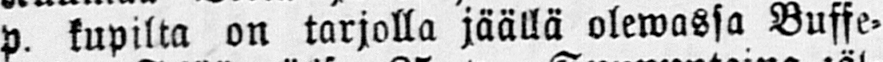p. kupilta on tarjolla jäällä olewassa Buffe-
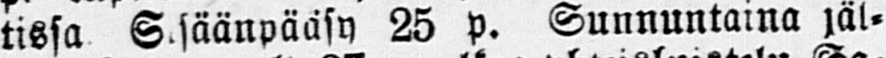tissa. S säänpääsy 25 p. Sunnuntaina jäl-
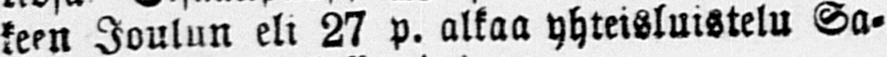keen Joulun eli 27 p. alkaa yhteisluistelu Sa-
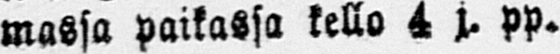massa paikassa kello 4 j. pp.
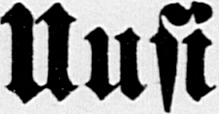Uusi
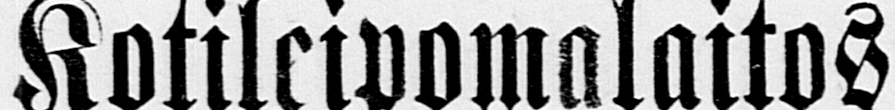Kotileipomalaitos
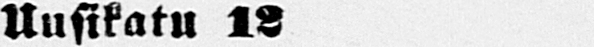Uusikatu 12
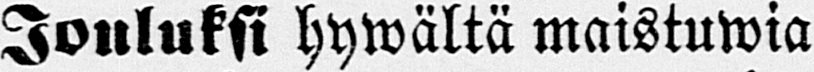Jouluksi hywältä maistuwia
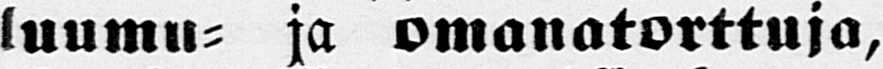luumu- ja omanatorttuja,
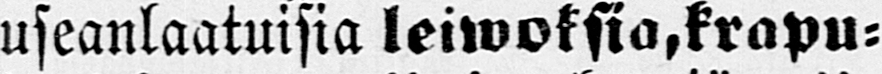useanlaatuisia leiwoksia, krapu-
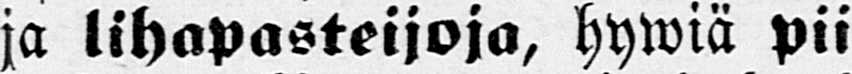ja lihapasteijoja, hywiä pii-
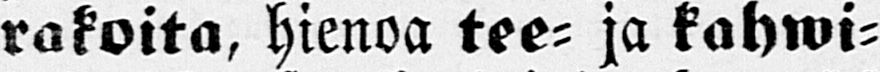rakoita, hienoa tee- ja kahwi-
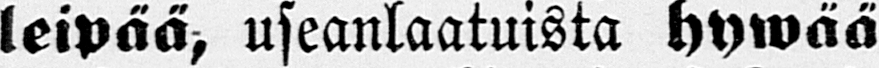leipää, useanlaatuista hywää
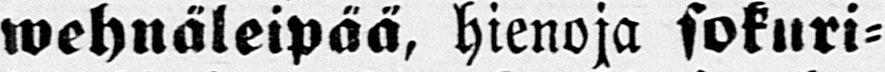wehnäleipää, hienoja sokuri-
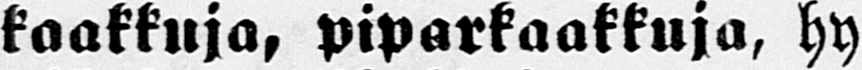kaakkuja, piparkaakkuja, hy-
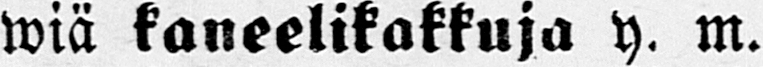wiä kaneelikakkuja y. m.
